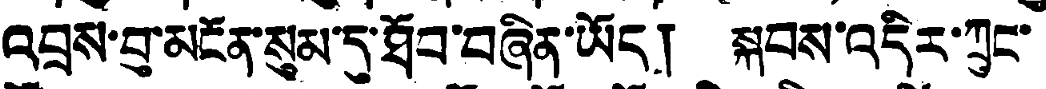འབྲས་བུ་མངོན་སུམ་དུ་ཐོབ་བཞིན་ཡོད། སྐབས་འདིར་ཀྲུང་
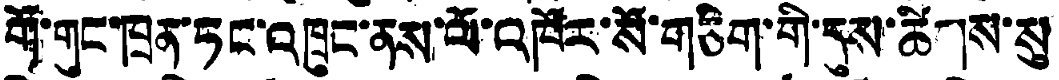གོ་གུང་ཁྲན་ཏང་འཁྲུང་ནས་ལོ་འཁོར་སོ་གཅིག་གི་དུས་ཚིགས་སུ
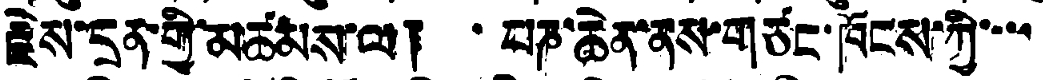རྗེས་དྲན་གྱི་མཚམས་ལ། པཎ་ཆེན་ནས་གཙང་ཁོངས་ཀྱི་་་་
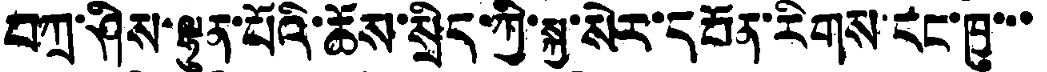བཀྲ་ཤིས་ལྷུན་པོའི་ཆོས་སྲིད་ཀྱི་སྐྱ་སེར་དཔོན་རིགས་དང་ཁྱུ་་་
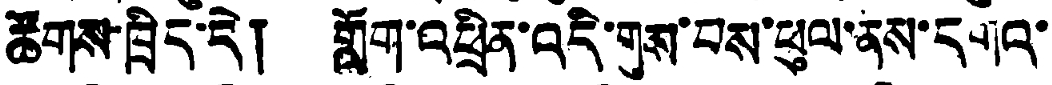ཚོགས་ཁྲིད་དེ། གློག་འཕྲིན་འདི་གུས་བས་ཕུལ་ནས་དགའ་
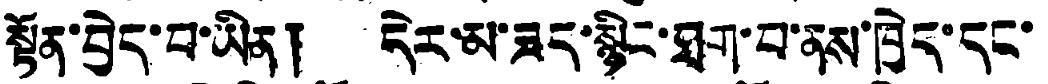སྟོན་བྱེད་པ་ཡིན། དེར་མ་ཟད་སྙིང་ཐག་བ་ནས་ཁྱེད་དང་
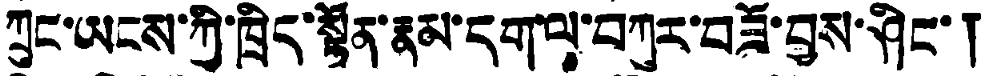ཀྲུང་ཡངས་ཀྱི་ཁྲིད་སྟོན་རྣམ་དགལ་བཀུར་བཟོ་བྱས་ཤིང་།
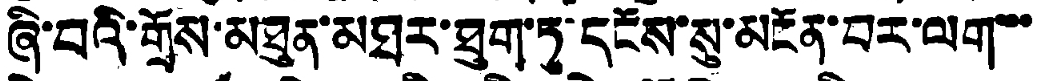ཞི་བའི་གྲོས་མཐུན་མཐར་ཐུག་ཏུ་དངོས་སུ་མངོན་བར་ལག་་་
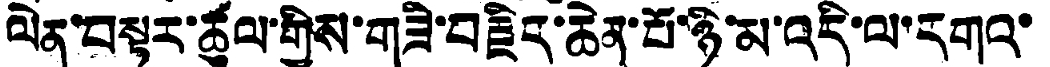ལེན་བསྟར་ཚུལ་གྱིས་གཟི་བརྗིད་ཆེན་པོ་ཉི་མ་འདི་ལ་དགའ་
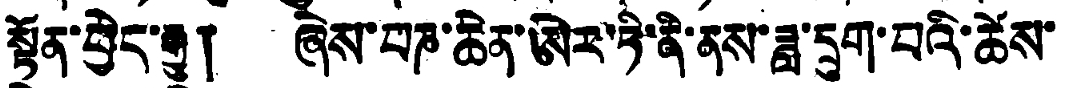སྟོན་བྱེད་རྒྱུ། ཞེས་པཎ་ཆེན་ཨེར་ཏི་ནི་ནས་ཟླ་དྲུག་པའི་ཚེས་
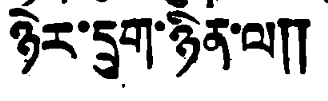ཉེར་དྲུག་ཉིན་ལ༎
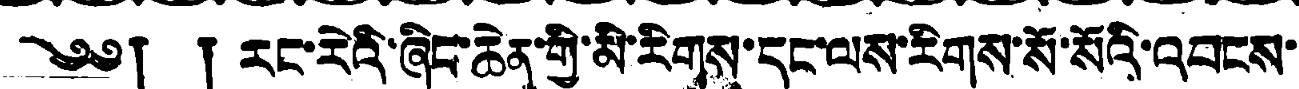༄༅། ། རང་རེའི་ཞིང་ཆེན་གྱི་མི་རིགས་དང་ལས་རིགས་སོ་སོའི་འབངས་
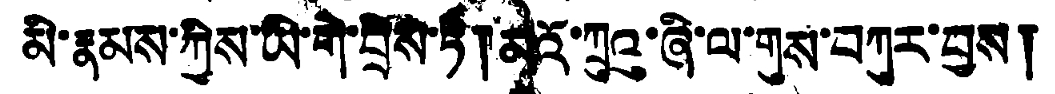མི་རྣམས་ཀྱིས་ཡི་གེ་བྲིས་ཏེ། མའོ་ཀྲུའུ་ཞི་ལ་གུས་བཀུར་བྱས།
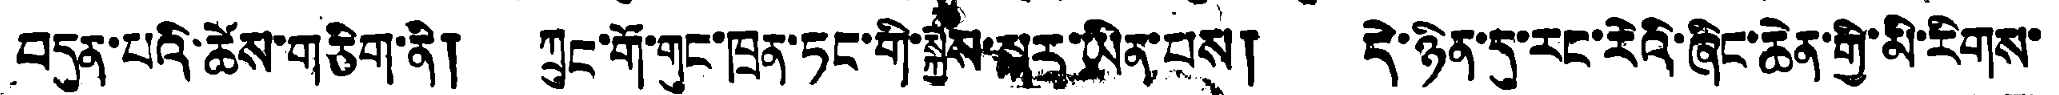བདུན་པའི་ཚེས་གཅིག་ནི། ཀྲུང་གོ་གུང་ཁྲན་ཏང་གི་སྐྱེས་སྐར་ཡིན་པས། དེ་ཉིན་དུ་རང་རེའི་ཞིང་ཆེན་གྱི་མི་རིགས་
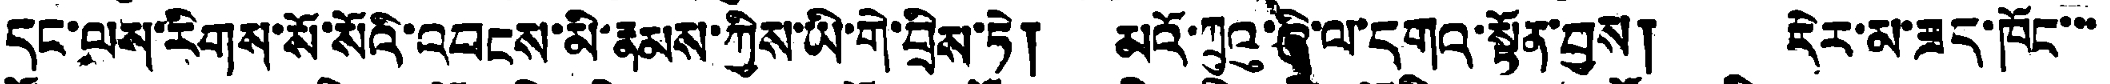དང་ལས་རིགས་སོ་སོའི་འབངས་མི་རྣམས་ཀྱིས་ཡི་གེ་བྲིས་ཏེ། མའོ་ཀྲུའུ་ཞི་ལ་དགའ་སྟོན་བྱས། དེར་མ་ཟད་ཁོང་་་
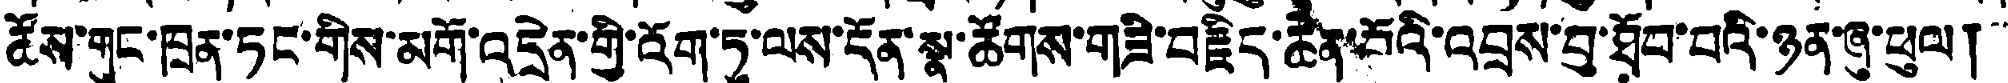ཚོས་གུང་ཁྲན་ཏང་གིས་མགོ་འདྲེན་གྱི་འོག་ཏུ་ལས་དོན་སྣ་ཚོགས་གཟི་བརྗིད་ཚན་པོའི་འབྲས་བུ་ཐོབ་པའི་ཉན་ཞུ་ཕུལ།
